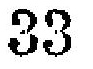33
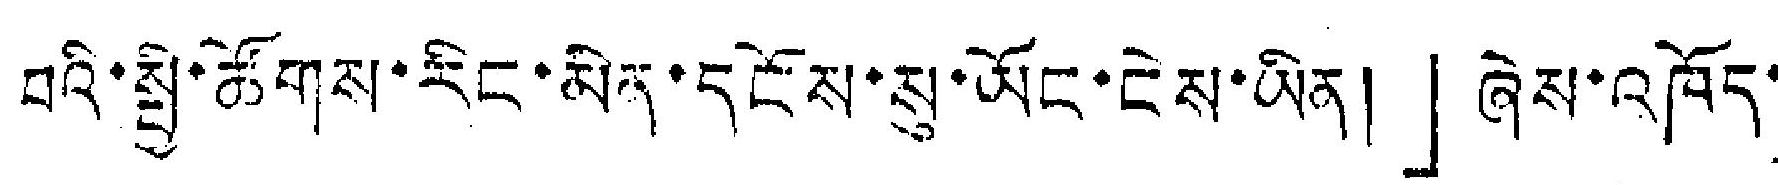བའི་སྤྱི་ཚོགས་རིང་མིན་དངོས་སུ་ཡོང་ངེས་ཡིན།」ཞེས་འཁོད་
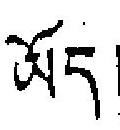ཡོད།
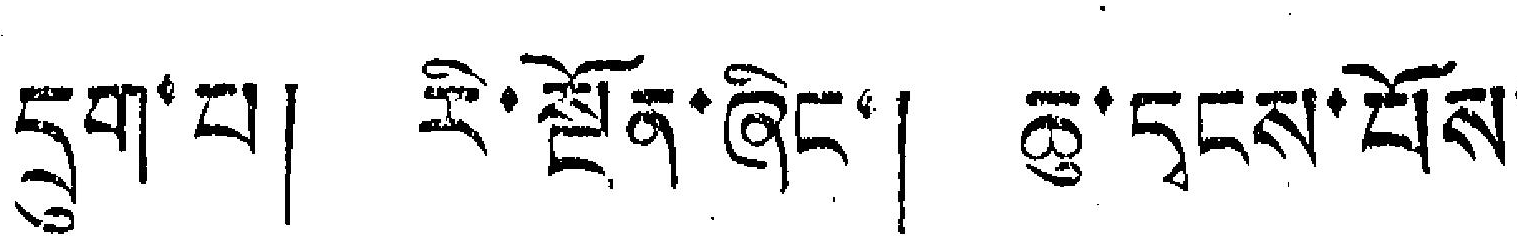དྲུག་པ། རི་སྔོན་ཞིང་། ཆུ་དྭངས་པོས་
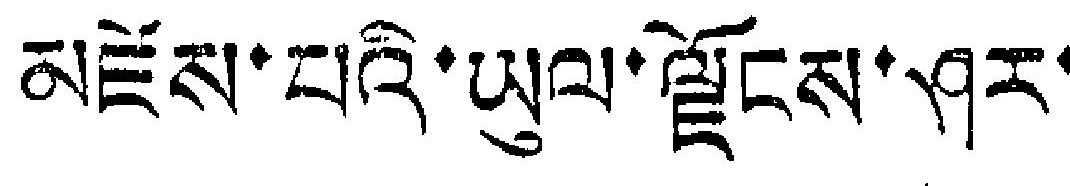མཛེས་པའི་ཡུལ་ལྗོངས་ཤར་
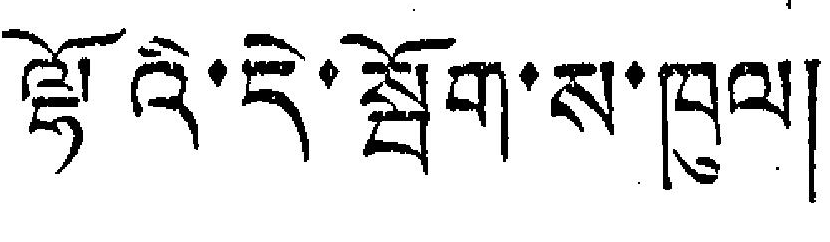ལྟོའི་དེ་སྦོག་ས་ཁྲུལ།
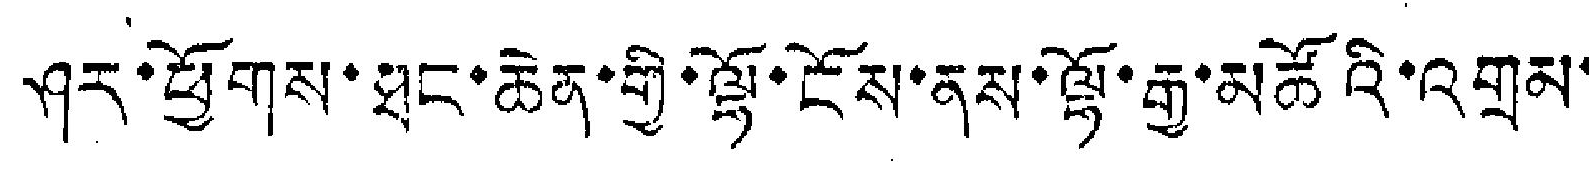ཤར་ཕྱོགས་ཐང་ཆེན་གྱི་ལྷོ་ངོས་ནས་ལྷོ་རྒྱ་མཚོའི་འགྲམ་
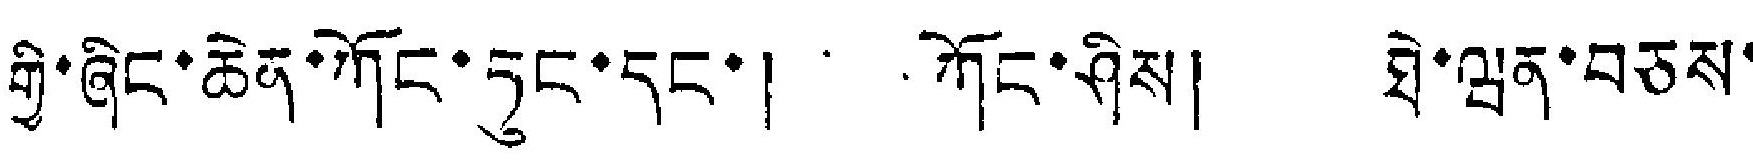གྱི་ཞིང་ཆེན་ཀོང་ཏུང་དང་། ཀོང་ཤིས། ཐེ་ཝན་བཅས་
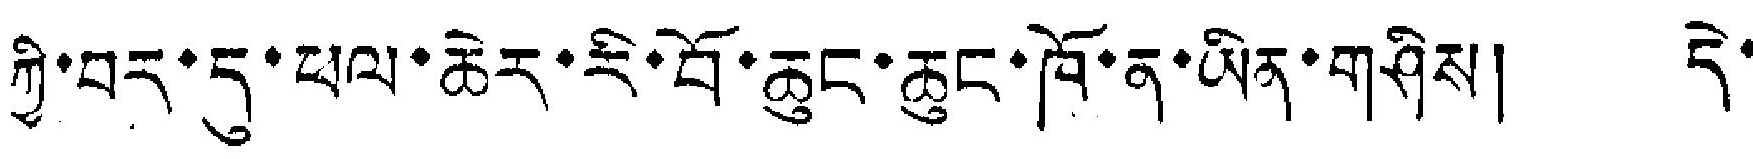ཀྱི་བར་དུ་ཕལ་ཆེར་རི་བོ་ཆུང་ཆུང་ཁོ་ན་ཡིན་གཤིས། དེ་
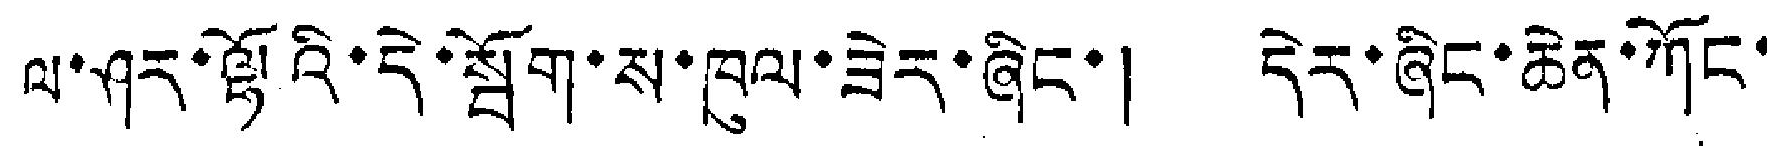ལ་ཤར་ལྷོའི་དེ་སྦོག་ས་ཁུལ་ཟེར་ཞིང་། དེར་ཞིང་ཆེན་ཀོང་
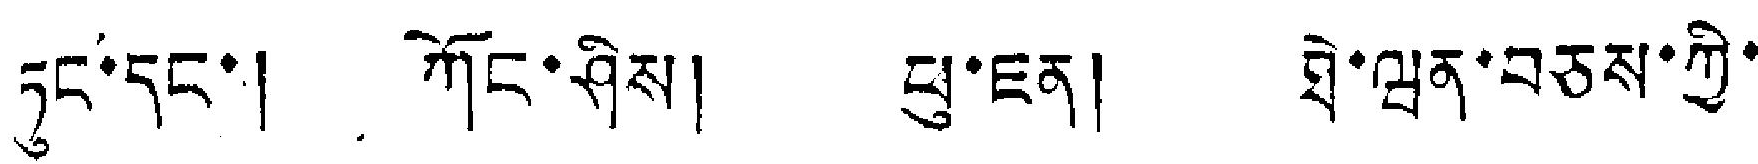ཏུང་དང་། ཀོང་ཤིས། ཕུ་ཇན། ཐེ་ཝན་བཅས་ཀྱི་
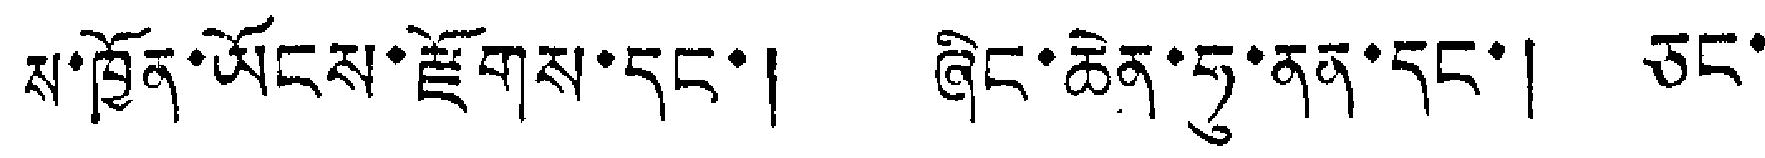ས་ཁྱོན་ཡོངས་རྫོགས་དང་། ཞིང་ཆེན་ཧུ་ནན་དང་། ཅང་
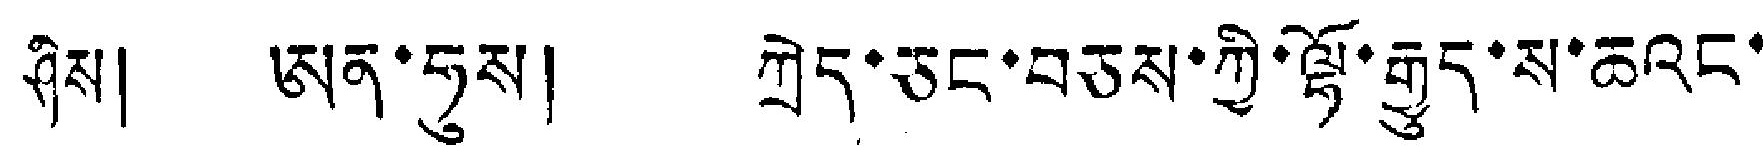ཤིས། ཨན་ཧུས། ཀྲེད་ཅང་བཅས་ཀྱི་ལྷོ་རྒྱུད་ས་ཆའང་
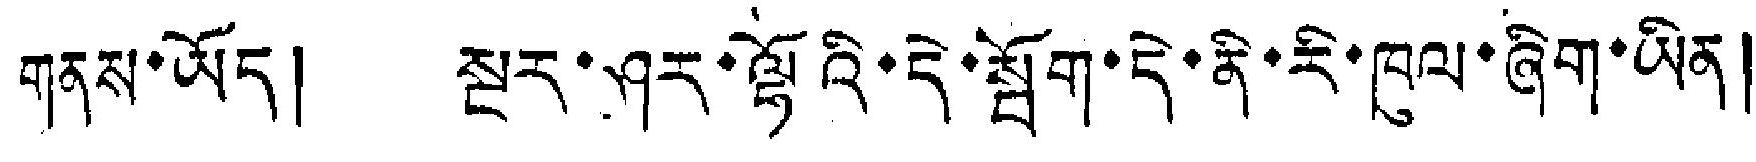གནས་ཡོད། སྔར་ཤར་ལྷོའི་དེ་སྦོག་དེ་ནི་རི་ཁུལ་ཞིག་ཡིན།
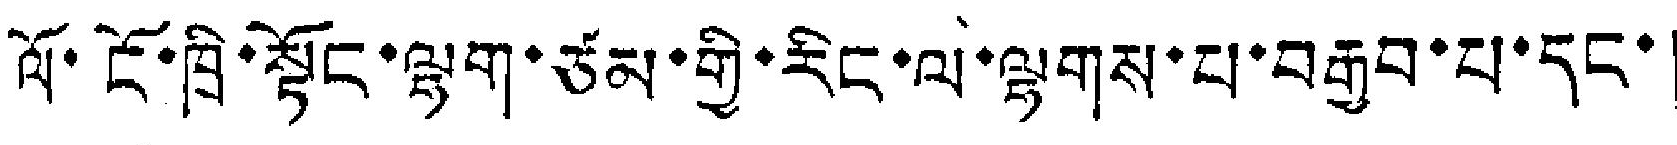ལོ་ངོ་ཁྲི་སྟོང་ལྷག་ཙམ་གྱི་རིང་ལ་ལྷགས་པ་བརྒྱབ་པ་དང་།
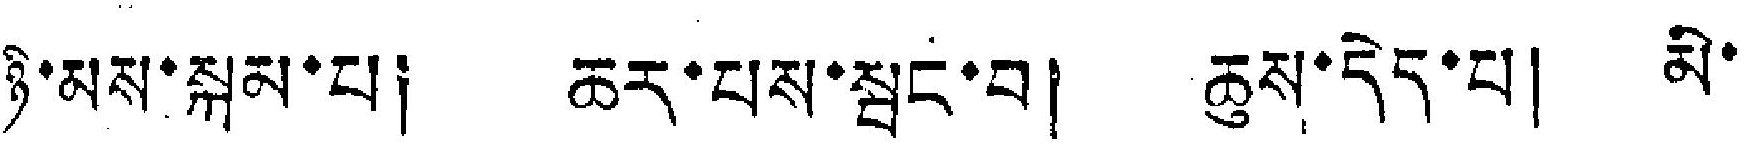ཉི་མས་སྐམ་པ། ཆར་པས་སྦང་བ། ཆུས་དེད་པ། མི་
